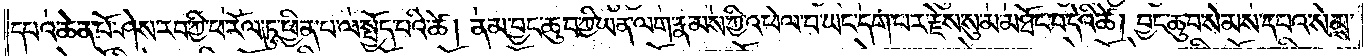དཔའ་ཆེན་པོ་ཤེས་རབ་ཀྱི་ཕ་རོལ་ཏུ་ཕྱིན་པ་ལ་སྤྱོད་པའི་ཚེ། ནམ་བྱང་ཆུབ་ཀྱི་ཡན་ལག་རྣམས་ཀྱི་འཕེལ་བ་ཡང་དག་པར་རྗེས་སུ་མ་མཐོང་བ་དེའི་ཚེ། བྱང་ཆུབ་སེམས་དཔའ་སེམས་
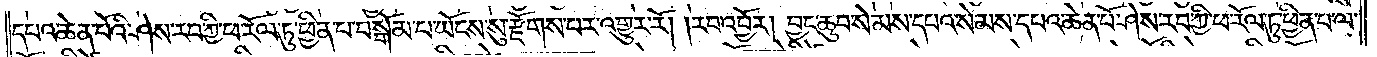དཔའ་ཆེན་པོའི་ཤེས་རབ་ཀྱི་ཕ་རོལ་ཏུ་ཕྱིན་པ་བསྒོམ་པ་ཡོངས་སུ་རྫོགས་པར་འགྱུར་རོ། །རབ་འབྱོར། བྱང་ཆུབ་སེམས་དཔའ་སེམས་དཔའ་ཆེན་པོ་ཤེས་རབ་ཀྱི་ཕ་རོལ་ཏུ་ཕྱིན་པ་ལ་
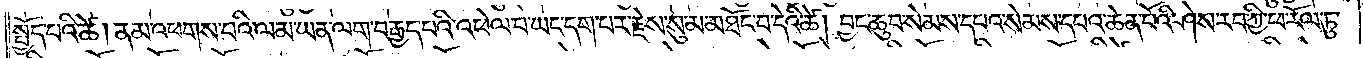སྤྱོད་པའི་ཚེ། ནམ་འཕགས་པའི་ལམ་ཡན་ལག་བརྒྱད་པའི་འཕེལ་བ་ཡང་དག་པར་རྗེས་སུ་མ་མཐོང་བ་དེའི་ཚེ། བྱང་ཆུབ་སེམས་དཔའ་སེམས་དཔའ་ཆེན་པོའི་ཤེས་རབ་ཀྱི་ཕ་རོལ་ཏུ་
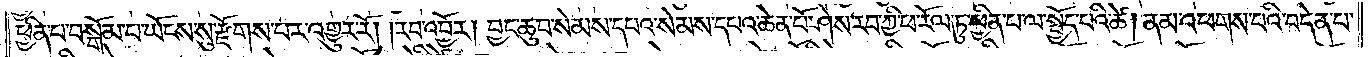ཕྱིན་པ་བསྒོམ་པ་ཡོངས་སུ་རྫོགས་པར་འགྱུར་རོ། །རབ་འབྱོར། བྱང་ཆུབ་སེམས་དཔའ་སེམས་དཔའ་ཆེན་པོ་ཤེས་རབ་ཀྱི་ཕ་རོལ་ཏུ་ཕྱིན་པ་ལ་སྤྱོད་པའི་ཚེ། ནམ་འཕགས་པའི་བདེན་པ་
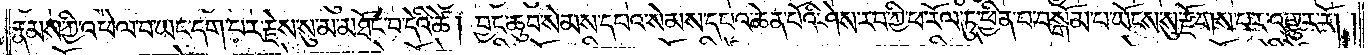རྣམས་ཀྱི་འཕེལ་བ་ཡང་དག་པར་རྗེས་སུ་མ་མཐོང་བ་དེའི་ཚེ། བྱང་ཆུབ་སེམས་དཔའ་སེམས་དཔའ་ཆེན་པོའི་ཤེས་རབ་ཀྱི་ཕ་རོལ་ཏུ་ཕྱིན་པ་བསྒོམ་པ་ཡོངས་སུ་རྫོགས་པར་འགྱུར་རོ། །
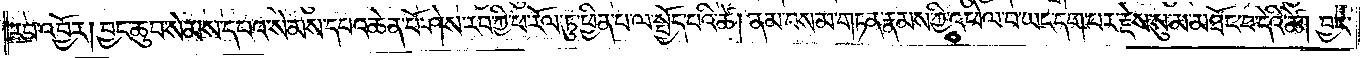རབ་འབྱོར། བྱང་ཆུབ་སེམས་དཔའ་སེམས་དཔའ་ཆེན་པོ་ཤེས་རབ་ཀྱི་ཕ་རོལ་ཏུ་ཕྱིན་པ་ལ་སྤྱོད་པའི་ཚེ། ནམ་བསམ་གཏན་རྣམས་ཀྱི་འཕེལ་བ་ཡང་དག་པར་རྗེས་སུ་མ་མཐོང་བ་དེའི་ཚེ། བྱང་
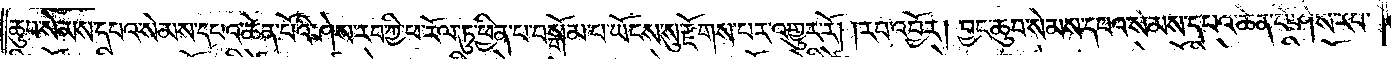ཆུབ་སེམས་དཔའ་སེམས་དཔའ་ཆེན་པོའི་ཤེས་རབ་ཀྱི་ཕ་རོལ་ཏུ་ཕྱིན་པ་བསྒོམ་པ་ཡོངས་སུ་རྫོགས་པར་འགྱུར་རོ། །རབ་འབྱོར། བྱང་ཆུབ་སེམས་དཔའ་སེམས་དཔའ་ཆེན་པོ་ཤེས་རབ་
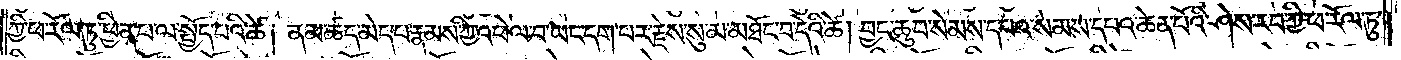ཀྱི་ཕ་རོལ་ཏུ་ཕྱིན་པ་ལ་སྤྱོད་པའི་ཚེ། ནམ་ཚད་མེད་པ་རྣམས་ཀྱི་འཕེལ་བ་ཡང་དག་པར་རྗེས་སུ་མ་མཐོང་བ་དེའི་ཚེ། བྱང་ཆུབ་སེམས་དཔའ་སེམས་དཔའ་ཆེན་པོའི་ཤེས་རབ་ཀྱི་ཕ་རོལ་ཏུ་
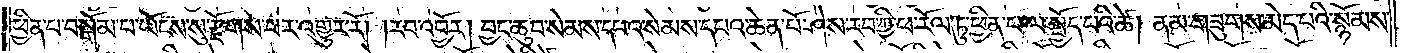ཕྱིན་པ་བསྒོམ་པ་ཡོངས་སུ་རྫོགས་པར་འགྱུར་རོ། །རབ་འབྱོར། བྱང་ཆུབ་སེམས་དཔའ་སེམས་དཔའ་ཆེན་པོ་ཤེས་རབ་ཀྱི་ཕ་རོལ་ཏུ་ཕྱིན་པ་ལ་སྤྱོད་པའི་ཚེ། ནམ་གཟུགས་མེད་པའི་སྙོམས་
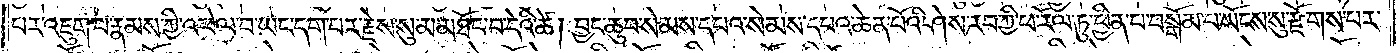པར་འཇུག་པ་རྣམས་ཀྱི་འཕེལ་བ་ཡང་དག་པར་རྗེས་སུ་མ་མཐོང་བ་དེའི་ཚེ། བྱང་ཆུབ་སེམས་དཔའ་སེམས་དཔའ་ཆེན་པོའི་ཤེས་རབ་ཀྱི་ཕ་རོལ་ཏུ་ཕྱིན་པ་བསྒོམ་པ་ཡོངས་སུ་རྫོགས་པར་
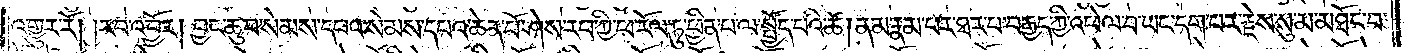འགྱུར་རོ། །རབ་འབྱོར། བྱང་ཆུབ་སེམས་དཔའ་སེམས་དཔའ་ཆེན་པོ་ཤེས་རབ་ཀྱི་ཕ་རོལ་ཏུ་ཕྱིན་པ་ལ་སྤྱོད་པའི་ཚེ། ནམ་རྣམ་པར་ཐར་པ་བརྒྱད་ཀྱི་འཕེལ་བ་ཡང་དག་པར་རྗེས་སུ་མ་མཐོང་བ་
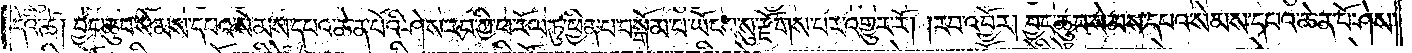དེའི་ཚེ། བྱང་ཆུབ་སེམས་དཔའ་སེམས་དཔའ་ཆེན་པོའི་ཤེས་རབ་ཀྱི་ཕ་རོལ་ཏུ་ཕྱིན་པ་བསྒོམ་པ་ཡོངས་སུ་རྫོགས་པར་འགྱུར་རོ། །རབ་འབྱོར། བྱང་ཆུབ་སེམས་དཔའ་སེམས་དཔའ་ཆེན་པོ་ཤེས་
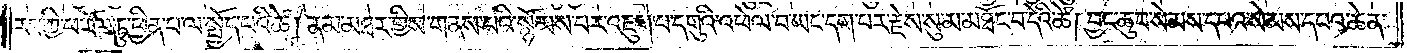རབ་ཀྱི་ཕ་རོལ་ཏུ་ཕྱིན་པ་ལ་སྤྱོད་པའི་ཚེ། ནམ་མཐར་གྱིས་གནས་པའི་སྙོམས་པར་འཇུག་པ་དགུའི་འཕེལ་བ་ཡང་དག་པར་རྗེས་སུ་མ་མཐོང་བ་དེའི་ཚེ། བྱང་ཆུབ་སེམས་དཔའ་སེམས་དཔའ་ཆེན་
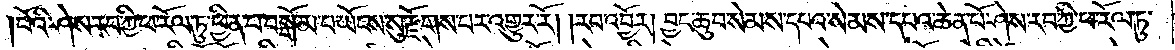པོའི་ཤེས་རབ་ཀྱི་ཕ་རོལ་ཏུ་ཕྱིན་པ་བསྒོམ་པ་ཡོངས་སུ་རྫོགས་པར་འགྱུར་རོ། །རབ་འབྱོར། བྱང་ཆུབ་སེམས་དཔའ་སེམས་དཔའ་ཆེན་པོ་ཤེས་རབ་ཀྱི་ཕ་རོལ་ཏུ་
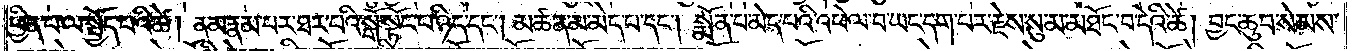ཕྱིན་པ་ལ་སྤྱོད་པའི་ཚེ། ནམ་རྣམ་པར་ཐར་པའི་སྒོ་སྟོང་པ་ཉིད་དང༌། མཚན་མ་མེད་པ་དང༌། སྨོན་པ་མེད་པའི་འཕེལ་བ་ཡང་དག་པར་རྗེས་སུ་མ་མཐོང་བ་དེའི་ཚེ། བྱང་ཆུབ་སེམས་
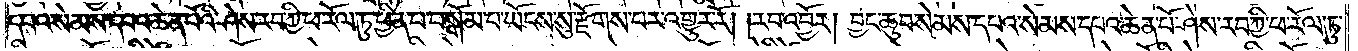དཔའ་སེམས་དཔའ་ཆེན་པོའི་ཤེས་རབ་ཀྱི་ཕ་རོལ་ཏུ་ཕྱིན་པ་བསྒོམ་པ་ཡོངས་སུ་རྫོགས་པར་འགྱུར་རོ། །རབ་འབྱོར། བྱང་ཆུབ་སེམས་དཔའ་སེམས་དཔའ་ཆེན་པོ་ཤེས་རབ་ཀྱི་ཕ་རོལ་ཏུ་
